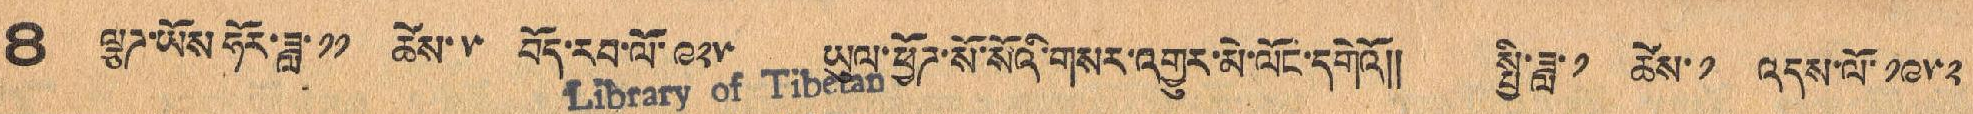8 ལྕཊ་ཡོས ཧོར་ཟླ་ ༡༡ ཚེས་ ༥ བོད་རབ་ལོ་ ༩༢༥ ཡུལ་ཕྱོཊ་སོ་སོའི་གསར་འགྱུར་མེ་ལོང་དགེའོ།། སྤྱི་ཟླ་ ༡ ཚེས་ ༡ འདས་ལོ་ ༡༩༥༢
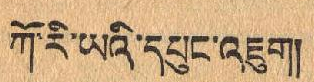ཀོ་རི་ཡའི་དཔུང་འཇུག།
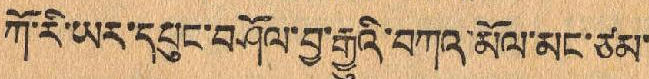ཀོ་རི་ཡར་དཔུང་བཤོལ་བྱ་རྒྱུའི་བཀའ་མོལ་མང་ཙམ་
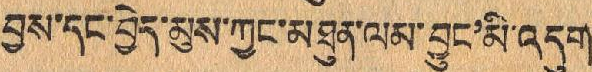བྱས་དང་བྱེད་མུས་ཀྱང་མཐུན་ལམ་བྱུང'མི་འདུག་
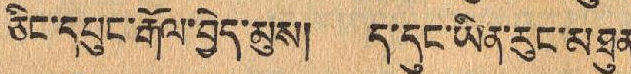ཅིང་དཔུང་རྒོལ་བྱེད་མུས། ད་དུང་ཡིན་རུང་མཐུན་
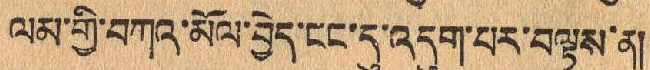ལམ་གྱི་བཀའ་མོལ་བྱེད་ངང་དུ་འདུག་པར་བལྟས་ན།
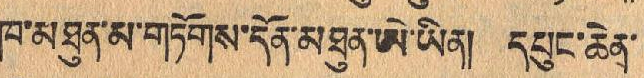ཁ་མཐུན་མ་གཏོགས་དོན་མཐུན་ཨེ་ཡིན། དཔུང་ཆེན་
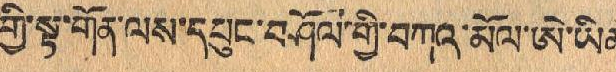གྱི་སྟ་གོན་ལས་དཔུང་བཤོལ་གྱི་བཀའ་མོལ་ཨེ་ཡིན།
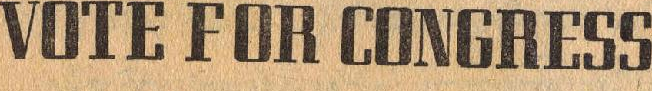VOTE FOR CONGRESS.
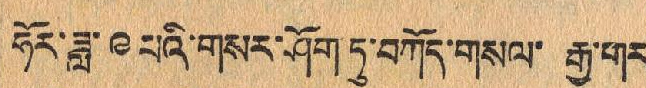ཧོར་ཟླ་ ༩ པའི་གསར་ཤོག་ཏུ་བཀོད་གསལ་ རྒྱ་གར་
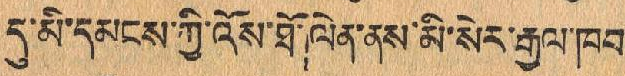དུ་མི་དམངས་ཀྱི་འོས་ཐོ་ལེན་ནས་མི་སེར་རྒྱལ་ཁབ་
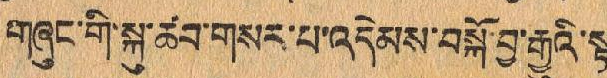གཞུང་གི་སྐུ་ཚབ་གསར་པ་འདེམས་བསྐོ་བྱ་རྒྱུའི་སྟ་
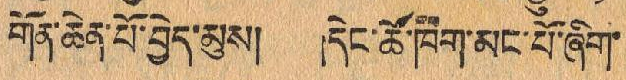གོན་ཆེན་པོ་བྱེད་མུས། །དེང་ཚོ་ཁག་མང་པོ་ཞིག་
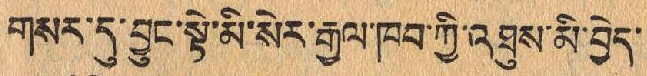གསར་དུ་བྱུང་སྟེ་མི་སེར་རྒྱལ་ཁབ་ཀྱི་འཐུས་མི་བྱེད་
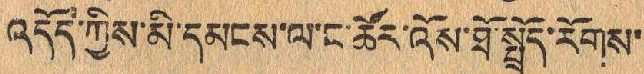འདོད་ཀྱིས་མི་དམངས་ལ་ང་ཚོར་འོས་ཐོ་སྤྲོད་རོགས་
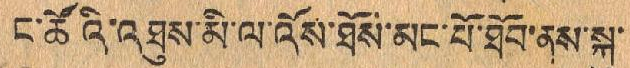ང་ཚོའི་འཐུས་མི་ལ་འོས་ཐོས་མང་པོ་ཐོབ་ནས་སྐུ་
